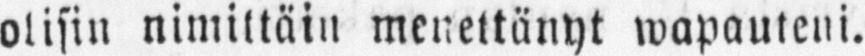olisin nimittäin menettänyt wapauteni.
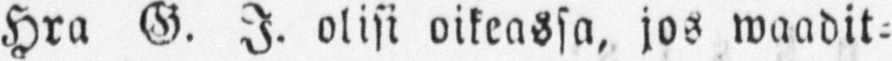Hra G. J. olisi oikeassa, jos waadit-
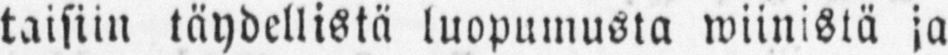täisiin täydellistä luopumusta wiinistä ja
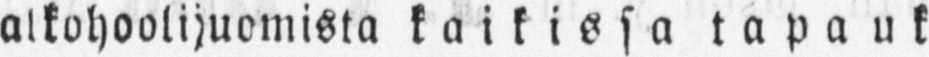alkohoolijuomista kaikissa tapauk-
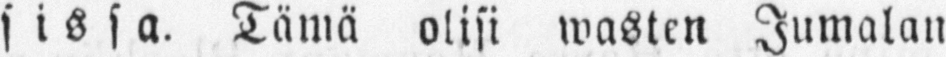sissa. Tämä olisi wasten Jumalan
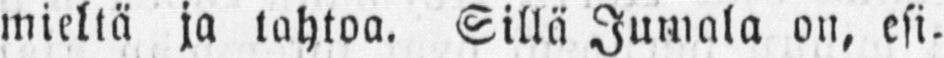mieltä ja tahtoa. Sillä Jumala on, esi-
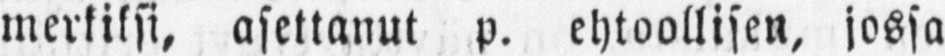merkiksi, asettanut p. ehtoollisen, jossa
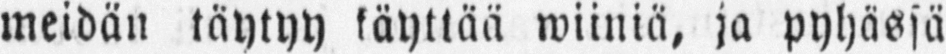meidän täytyy käyttää wiiniä, ja pyhässä
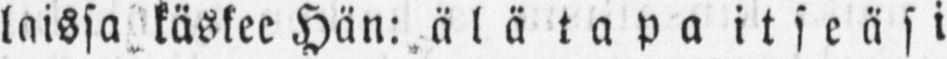laissa käskee Hän: älä tapa itseäsi
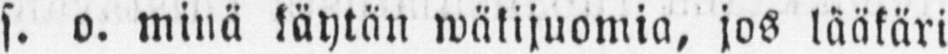s. o. minä käytän wäkijuomia, jos lääkäri
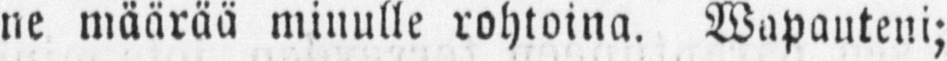ne määrää minulle rohtoina. Wapauteni;
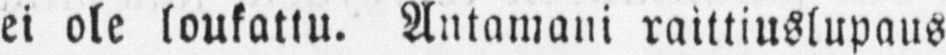ei ole loukattu. Antamani raittiuslupaus
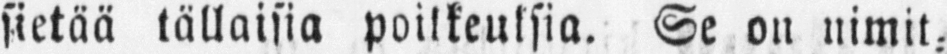sietää tällaisia poikkeuksia. Se on nimit-
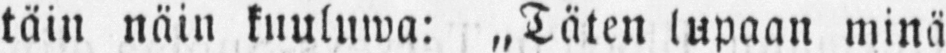täin näin kuuluwa: Täten lupaan minä
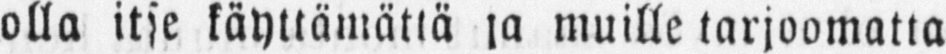olla itse käyttämänä ja muille tarjoomatta
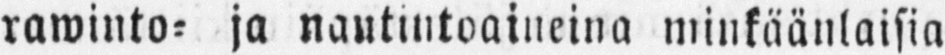rawinto- ja nauttintoaineina minkäänlaisia
